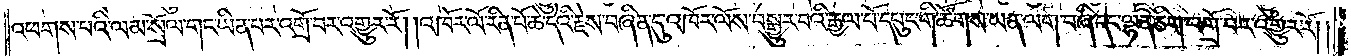འཕགས་པའི་ལམ་སྲོལ་གང་ཡིན་པར་འགྲོ་བར་འགྱུར་རོ། །འཁོར་ལོ་རིན་པོ་ཆེ་དེའི་རྗེས་བཞིན་དུ་འཁོར་ལོས་བསྒྱུར་བའི་རྒྱལ་པོ་དཔུང་གི་ཚོགས་ཡན་ལག་བཞི་དང་ལྷན་ཅིག་འགྲོ་བར་འགྱུར་རོ། །
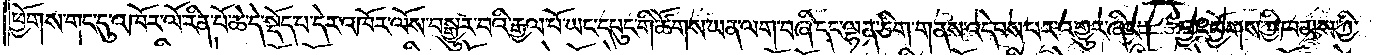ཕྱོགས་གང་དུ་འཁོར་ལོ་རིན་པོ་ཆེ་དེ་སྡོད་པ་དེར་འཁོར་ལོས་བསྒྱུར་བའི་རྒྱལ་པོ་ཡང་དཔུང་གི་ཚོགས་ཡན་ལག་བཞི་དང་ལྷན་ཅིག་གནས་འདེབས་པར་འགྱུར་ཞིང༌། བྱང་ཕྱོགས་ཀྱི་ཁམས་ཀྱི་
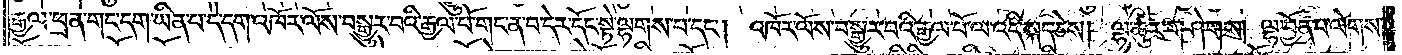རྒྱལ་ཕྲན་གང་དག་ཡིན་པ་དེ་དག་འཁོར་ལོས་བསྒྱུར་བའི་རྒྱལ་པོ་གང་ན་བ་དེར་དོང་སྟེ་ལྷགས་པ་དང༌། འཁོར་ལོས་བསྒྱུར་བའི་རྒྱལ་པོ་ལ་འདི་སྐད་ཅེས། ལྷ་ཚུར་གཤེགས། ལྷ་བྱོན་པ་ལེགས་
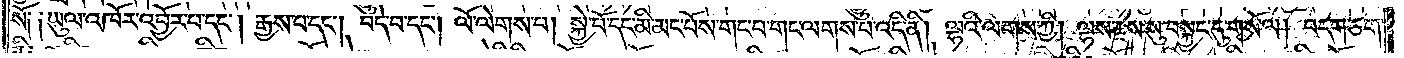སོ༑ ༑ཡུལ་འཁོར་འབྱོར་པ་དང༌། རྒྱས་པ་དང༌། བདེ་བ་དང༌། ལོ་ལེགས་པ། སྐྱེ་བོ་དང་མི་མང་པོས་གང་བ་གང་ལགས་པ་འདི་ནི། ལྷའི་ལགས་ཀྱི། ལྷས་རྗེས་སུ་བསྐྱང་དུ་གསོལ། བདག་ཅག་
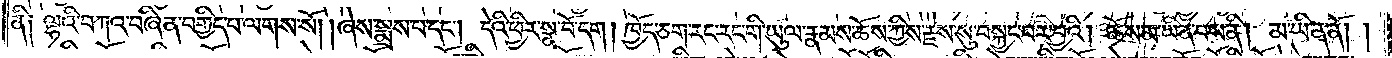ལྷའི་བཀའ་བཞིན་བགྱིད་པ་ལགས་སོ། །ཞེས་སྨྲས་པ་དང༌། དེའི་ཕྱིར་སྣ་བོ་དག །ཁྱོད་ཅག་རང་རང་གི་ཡུལ་རྣམས་ཆོས་ཀྱིས་རྗེས་སུ་བསྐྱང་བར་བྱའི། ཆོས་མ་ཡིན་པས་ནི། མ་ཡིན་ནོ། །
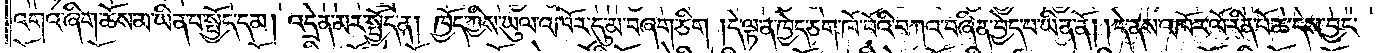འགའ་ཞིག་ཆོས་མ་ཡིན་པ་སྤྱོད་དམ། འདྲེན་མར་སྤྱོད་ན། ཁྱོད་ཀྱིས་ཡུལ་འཁོར་དུ་མ་བཞག་ཅིག །དེ་ལྟ་ན་ཁྱེད་ཅག་ཁོ་བོའི་བཀའ་བཞིན་བྱེད་པ་ཡིན་ནོ། །དེ་ནས་འཁོར་ལོ་རིན་པོ་ཆེ་དེས་བྱང་
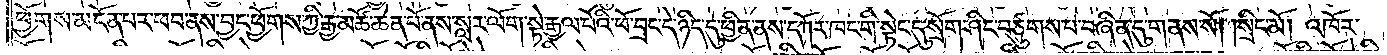ཕྱོགས་མངོན་པར་ཕབ་ནས་བྱང་ཕྱོགས་ཀྱི་རྒྱ་མཚོ་ཆེན་པོ་ནས་སླར་ལོག་སྟེ་རྒྱལ་པོའི་ཕོ་བྲང་དེ་ཉིད་དུ་ཕྱིན་ནས་དཀོར་ཁང་གི་སྟེང་དུ་སྲོག་ཤིང་བཙུགས་པ་བཞིན་དུ་གནས་སོ། །སྲིང་མོ། །འཁོར་
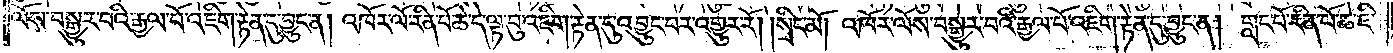ལོས་བསྒྱུར་བའི་རྒྱལ་པོ་འཇིག་རྟེན་དུ་བྱུང་ན། འཁོར་ལོ་རིན་པོ་ཆེ་དེ་ལྟ་བུ་འཇིག་རྟེན་དུ་འབྱུང་བར་འགྱུར་རོ། །སྲིང་མོ། འཁོར་ལོས་བསྒྱུར་བའི་རྒྱལ་པོ་འཇིག་རྟེན་དུ་བྱུང་ན། གླང་པོ་རིན་པོ་ཆེ་ཇི་
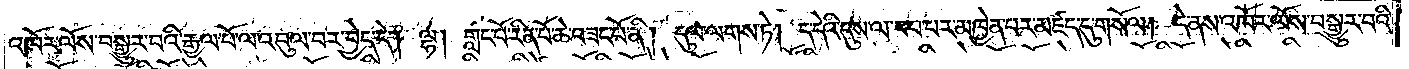འཁོར་ལོས་བསྒྱུར་བའི་རྒྱལ་པོ་ལ་འབུལ་བར་བྱེད་དེ། ལྷ། གླང་པོ་རིན་པོ་ཆེ་བཟང་པོ་ནི། དུལ་ལགས་ཏེ། ད་དེའི་དུས་ལ་བབ་པར་མཁྱེན་པར་མཛད་དུ་གསོལ། དེ་ནས་འཁོར་ལོས་བསྒྱུར་བའི་
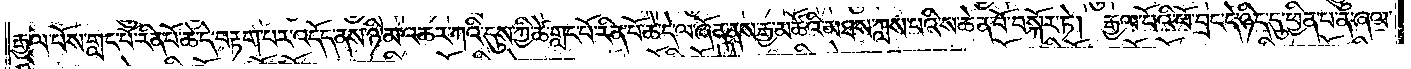རྒྱལ་པོས་གླང་པོ་རིན་པོ་ཆེ་དེ་བརྟག་པར་འདོད་ནས་ཉི་མ་འཆར་ཀའི་དུས་ཀྱི་ཚེ་གླང་པོ་རིན་པོ་ཆེ་ཆེ་དེ་ལ་ཞོན་ནས་རྒྱ་མཚོའི་མཐས་ཀླས་པའི་ས་ཆེན་པོ་བསྐོར་ཏེ། རྒྱལ་པོའི་ཕོ་བྲང་དེ་ཉིད་དུ་ཕྱིན་པ་ན་ཞལ་
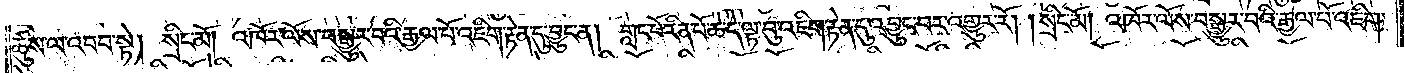ཚུས་ལ་འབབ་སྟེ། སྲིང་མོ། འཁོར་ལོས་བསྒྱུར་བའི་རྒྱལ་པོ་འཇིག་རྟེན་དུ་བྱུང་ན། གླང་པོ་རིན་པོ་ཆེ་དེ་ལྟ་བུ་འཇིག་རྟེན་དུ་འབྱུང་བར་འགྱུར་རོ། །སྲིང་མོ། འཁོར་ལོས་བསྒྱུར་བའི་རྒྱལ་པོ་འཇིག་
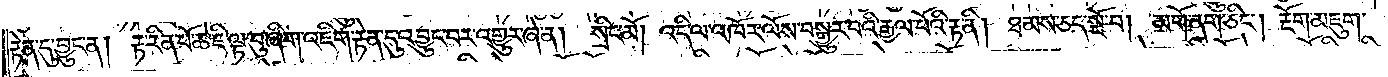རྟེན་དུ་བྱུང་ན། རྟ་རིན་པོ་ཆེ་ཇི་ལྟ་བུ་ཞིག་འཇིག་རྟེན་དུ་འབྱུང་བར་འགྱུར་ཞེ་ན། སྲིང་མོ། འདི་ལ་འཁོར་ལོས་བསྒྱུར་བའི་རྒྱལ་པོའི་རྟ་ནི། ཐམས་ཅད་སྔོ་བ། མགོ་ནག་ཅིང༌། རྔོག་མཇུག་
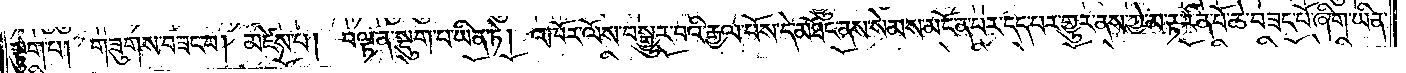སྟུག་པ། གཟུགས་བཟང་བ། མཛེས་པ། བལྟ་ན་སྡུག་པ་ཡིན་ཏེ། འཁོར་ལོས་བསྒྱུར་བའི་རྒྱལ་པོས་དེ་མཐོང་ནས་སེམས་མངོན་པར་དད་པར་གྱུར་ནས་ཀྱེ་མ་རྟ་རིན་པོ་ཆེ་བཟང་པོ་ཞིག་ཡིན་
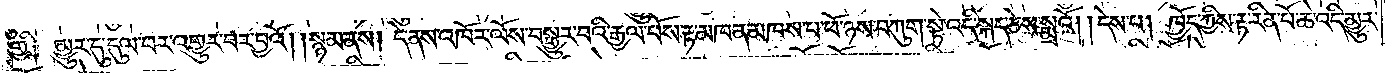གྱི༑ མྱུར་དུ་དུལ་བར་འགྱུར་བར་བྱའོ། །སྙམ་ནས། དེ་ནས་འཁོར་ལོས་བསྒྱུར་བའི་རྒྱལ་པོས་རྟ་མཁན་མཁས་པ་ཕོ་ཉས་བཀུག་སྟེ་འདི་སྐད་ཅེས་སྨྲའོ། །དེས་པ། ཁྱོད་ཀྱིས་རྟ་རིན་པོ་ཆེ་འདི་མྱུར་
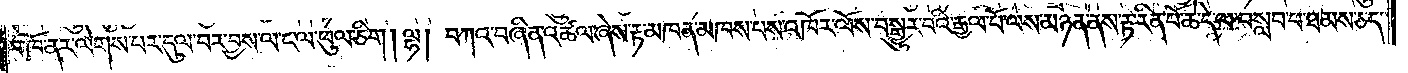བ་ཁོ་ནར་ལེགས་པར་དུལ་བར་བྱས་ལ་ང་ལ་ཕུལ་ཅིག །ལྷ། བཀའ་བཞིན་འཚལ་ཞེས་རྟ་མཁན་མཁས་པས་འཁོར་ལོས་བསྒྱུར་བའི་རྒྱལ་པོ་ལས་མཉན་ནས་རྟ་རིན་པོ་ཆེ་དེ་ལ་བསླབ་པ་ཐམས་ཅད་
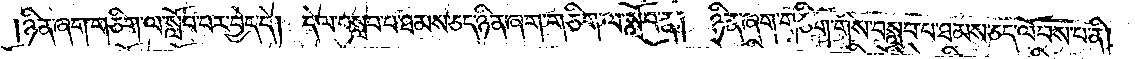ཉིན་ཞག་གཅིག་ལ་སློབ་པར་བྱེད་དེ། དེ་ལ་བསླབ་པ་ཐམས་ཅད་ཉིན་ཞག་གཅིག་ལ་སློབ་ན། ཉིན་ཞག་གཅིག་གིས་བསླབ་པ་ཐམས་ཅད་ལོབས་པ་ནི།
